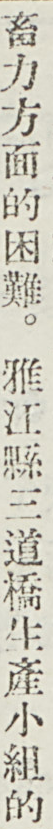畜力方面的困難。雅江縣三道橋生產小組的
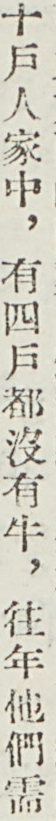十戶人家中，有四戶都沒有牛，往年他們需
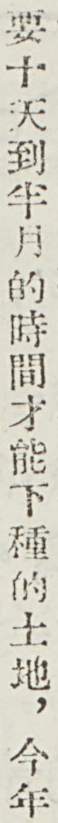要十天到半月的時間才能下種的土地，今年
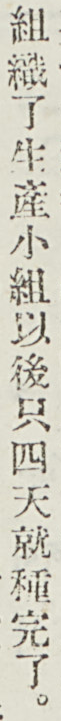組織了生產小組以後只四天就種完了。
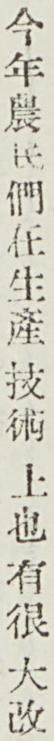今年農民們在生產技術上也有很大改
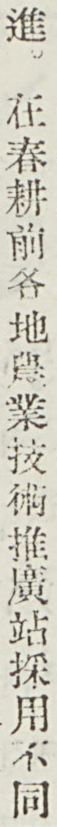進。在春耕前各地農業技術推廣站採用不同
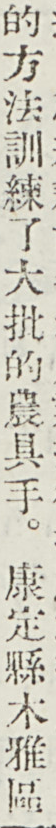的方法訓練了大批的農具手。康定縣木雅區
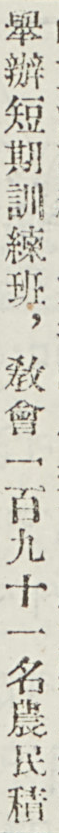舉辦短期訓練班，敎會一百九十一名農民積
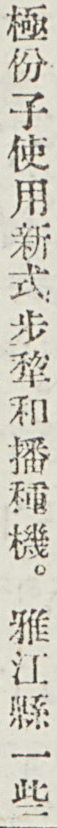極份子使用新式步犂和播種機。雅江縣一些
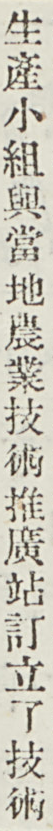生產小組與當地農業技術推廣站訂立了技術
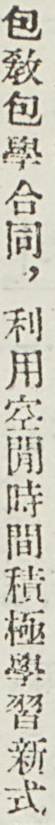包敎包學合同，利用空閒時間積極學習新式
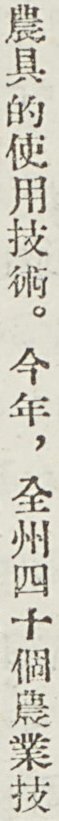農具的使用技術。今年，全州四十個農業技
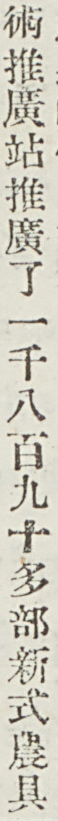術推廣站推廣了一千八百九十多部新式農具
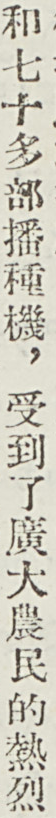和七十多部播種機，受到了廣大農民的熱烈
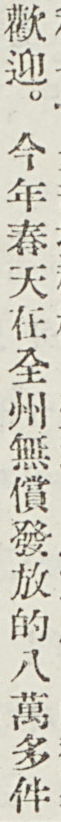歡迎。今年春天在全州無償發放的八萬多件
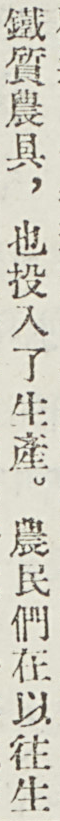鐵質農具，也投入了生產。農民們在以往生
